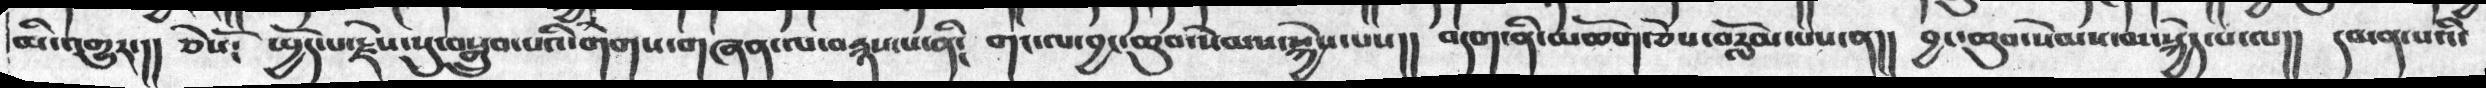མི་འགྱུར་།།  ཅེསོ༴  སྤྱོད་པ་རྗེས་སུ་བསྒྲུབ་པའི་གེགས་གཞན་ལ་བརྙས་པ་ནི༴  གང་ལ་བྱང་ཆུབ་སེམས་སྐྱེས་པས།།  བདག་ནི་མཆོག་ཅེས་བརློམ་པས་ན།།   བྱང་ཆུབ་སེམས་མ་སྐྱེད་པ་ལ།།  དམན་པའི་
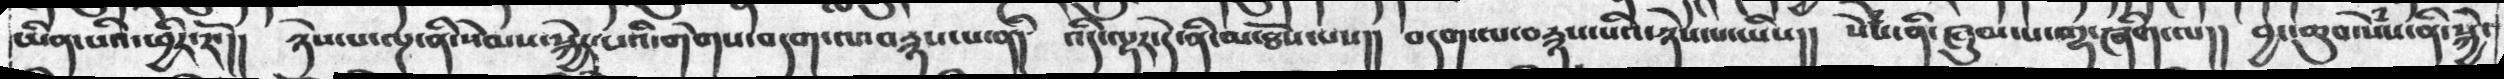ཡིན་པའི་ཕྱིར་རོ་།།  ཉེས་པ་ལྔ་ནི་སེམས་སྐྱེད་པའི་གེགས་བདག་ལ་བརྙས་པ་ནི། འདི་ལྟར་དེ་ནི་མ་ཐོས་པས།། བདག་ལ་བརྙས་པའི་ཉེས་པ་ཡིས།།  སེཾས་ནི་ཞུམ་པ་གྷ་ཞིག་ལ།། བྱང་ཆུབ་སེཾས་ནི་སྐྱེ་
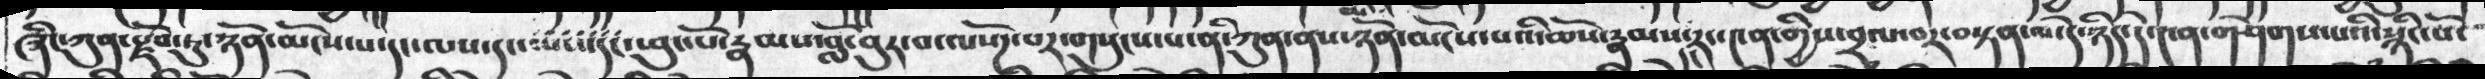ཞིང་ཀུན་རྫོབ་ཏུ་ཉོན་མོངས་པ་དང་ལས་དང་ལས་དང་ཕུང་པོ་རྣམས་བློ་བུར་བ་ལསོཌ་པར་གསུངས་པ་ནི་ཀུན་ནས་ཉོན་མོངས་པའི་ཆོས་རྣམས་དང་རང་༤ན་གྱིས་བྲལ་བར་བསྟན་ལ་དེ་ཉིད་དེ་༤ན་གཤེགས་པའི་སྙིང་པོ་
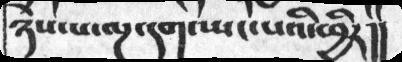ཉེས་པ་ལྔ་དག་ཡང་པའི་ཕྱིར།།
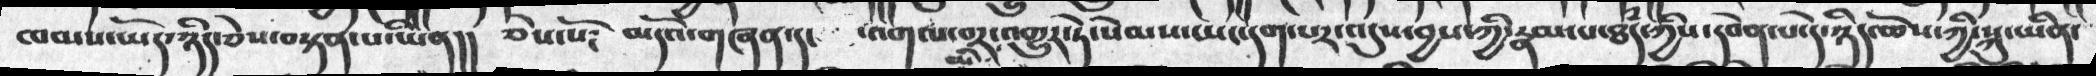ཁམས་ཡོད་ཉིད་ཅེས་བསྟན་པ་ཡིན།།  ཅེསོ༴   མདོའ་གཞན་དང  ་འགལ་བར་མི་འགྱུར་ཏེ་སེམས་ཡང་དག་པར་འདུས་བྱས་ཀྱི་རྣམ་པ་ཐཾད་ཀྱིས་དབེན་པ་དེ་ཉིད་ཆོས་ཀྱི་སྐུ་ཡིན་
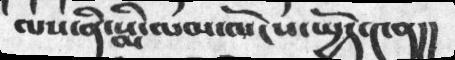ལས་ནི་སྨི་ལམ་ལོངས་སྤྱོད་༤ན།།
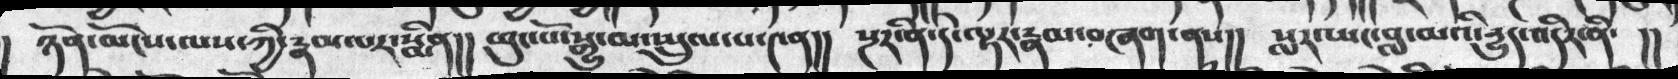། ཉོན་མོངས་ལས་ཀྱི་རྣམ་པར་སྨིན།། ཕུང་པོ་སྒྱུ་མ་སྤྲུལ་པ་༤ན།། སྔར་ནི་དེ་ལྟར་རྣམ་བཞག་ནས།། སླར་ཡང་བླ་མའི་རྱུད་འདིར་ནི་ །།
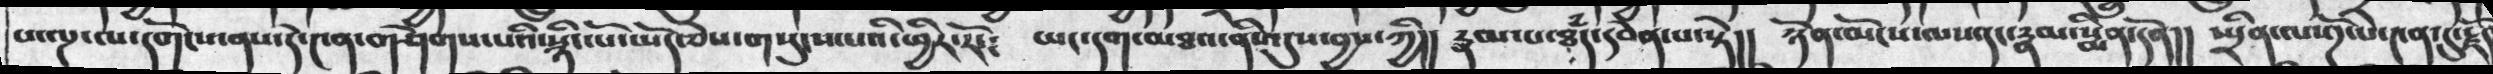པ་ལྔ་ལ་དགོངས་ནས་དེ་༤ན་གཤེགས་པའི་སྙིང་པོ་ཡོད་ཅེས་གསུངས་པའི་ཕྱིར་རོ་༴ ཡང་དག་མཐའ་ནི་འདུས་བྱས་ཀྱི།། རྣམ་པ་ཐཾད་དབེན་པ་སྟེ།། ཉོན་མོངས་ལས་དང་རྣམ་སྨིན་དོན།། སྤྲིན་ལསོཌ་པ་༤ན་དུ་རྗོད
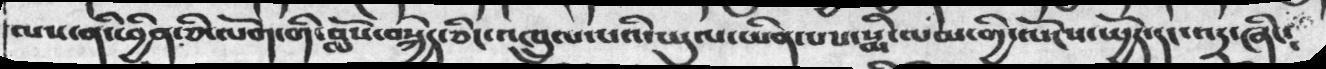ལས་ནི་ཕྱིན་ཅི་ལོག་གི་བློས་བསྐྱེད་ཅིང་འཁྲུལ་པའི་ཡུལ་ཡིན་པས་སྨི་ལམ་གྱི་ལོངས་སྤྱོད་དང་འདྲ་ཞིང༴
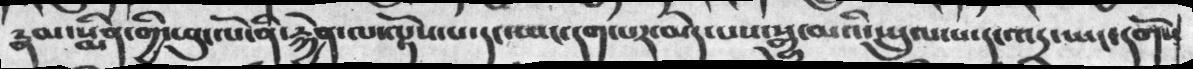རྣམ་སྨིན་གྱི་ཕུང་པོ་ནི་རྐྱེན་ལ་ལྟོས་པ་དང་ཡང་དག་པར་མེད་པས་སྒྱུ་མའི་སྤྲུལ་པ་དང་འདྲ་ཡང་དགོས
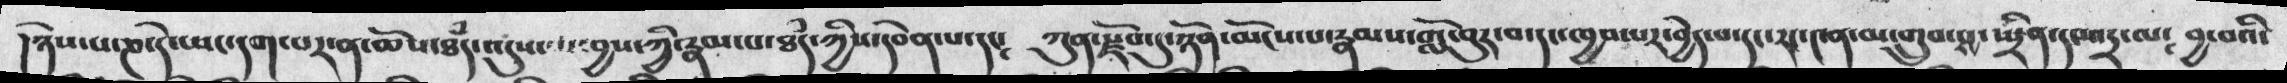།ཉེས་པ་ཎ་དེ་ཡང་དག་པར་ན་ཆོས་ཐཾད་འདུས་མ་བྱས་ཀྱི་རྣམ་པ་ཐཾད་ཀྱིས་དབེན་པ་དང༴ ཀུན་སྫོབ་དུ་ཉོན་མོངས་པ་རྣམས་གློ་བུར་བ་དང་ཁྱབ་པར་བྱེད་པ་དང་རང་༤ན་མ་གྲུབ་པ་སྤྲིན་དང་འདྲ་ལ༴ བྱ་བའི་
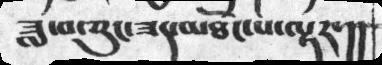ཟླ་བ་ཅུང་ཟད་མཐོང་པ་ལྟར་།།
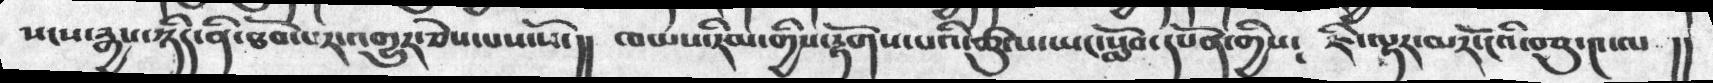སངས་རྒྱས་ཉིད་ནི་ཐོབ་པར་འགྱུར་ཅེས་པས་སོ་།། ཁམས་རིམ་གྱིས་རྟོགས་པའི་ཚུལ་ཡང་སློབ་དཔོན་གྱིས༴ ཇི་ལྟར་མར་ངོའི་བཅུ་༤་ལ །།
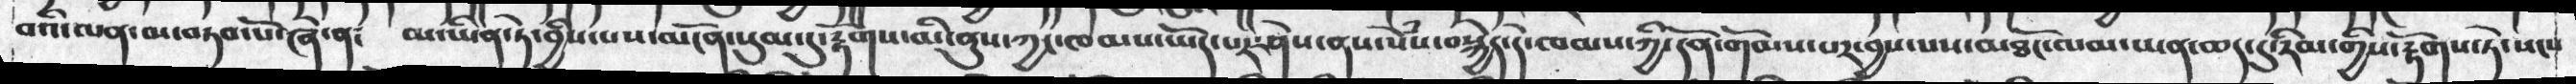བའི་ལན་མ་བཏབ་སོ་ཞེ་ན༴ མ་ཡིན་ཏེ་བྱིས་པས་མངོན་སུམ་དུ་རྟོགས་མི་ནུས་ཀྱང་ཁམས་ཡོད་པར་ཤེས་ནས་སེཾས་བསྐྱེད་དེ་ཁམས་ཀྱི་དོན་གོམས་པར་བྱས་པས་མཐོང་ལམ་ཡན་ཆད་དུ་རིམ་གྱིས་རྟོགས་ཏེ་སངས
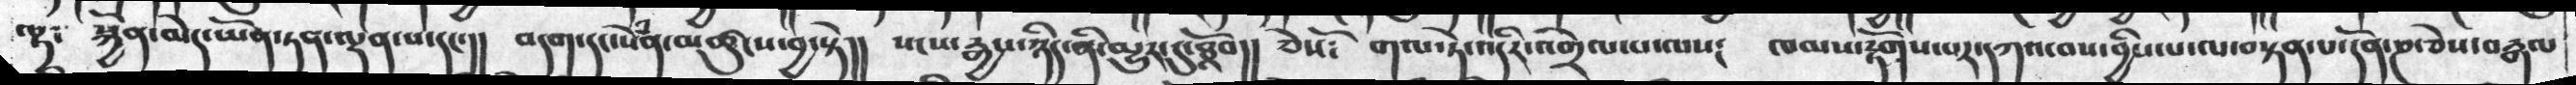ལྟ་ སྐྱོན་མེད་ཡོན་ཏན་ལྡན་པ་དང་།།  བདག་དང་སེཾན་མཚུངས་བྱ་སྟེ།། སངས་རྒྱས་ཉིད་ནི་མྱུར་དུ་ཐོབ།། ཅེསོ༴ གལ་ཏེ་འདིར་འགྲེལ་པ་ལས༴  ཁམས་རྟོགས་པར་དཀའ་བས་བྱིས་པ་ལ་བསྟན་པ་དོན་ཎ་ཅེས་བརྒལ
